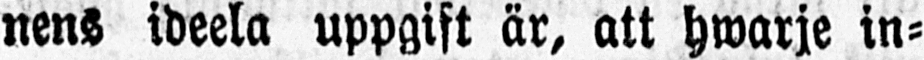nens ideela uppgift är, att hwarje in-
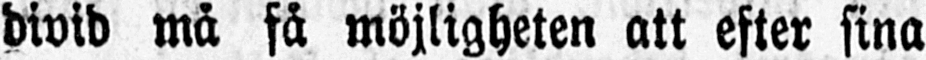divid må få möjligheten att efter sina
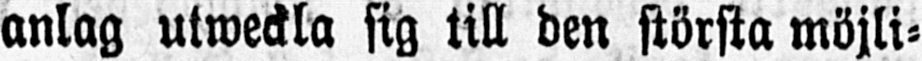anlag utweckla sig till den största möjli-
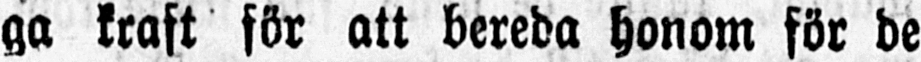ga kraft för att bereda honom för de
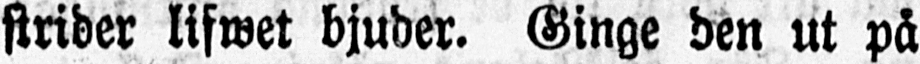strider lifwet bjuder. Ginge den ut på
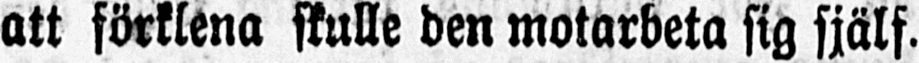att förklena skulle den motarbeta sig själf.
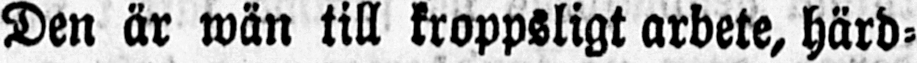Den är wän till kroppsligt arbete, härd-
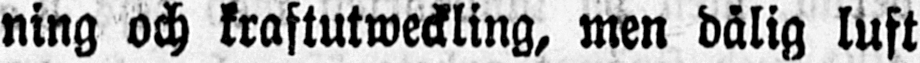ning och kraftutweckling, men dålig luft
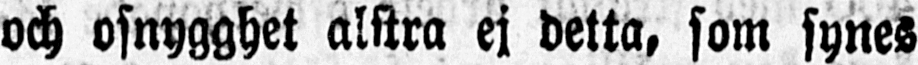och osnygghet alstra ej detta, som synes
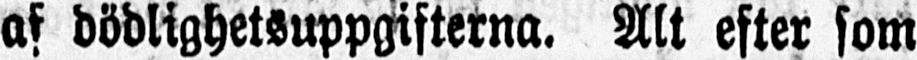af dödlighetsuppgifterna. Alt efter som
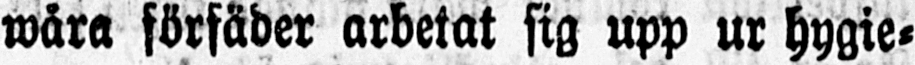wåra förfäder arbetat sig upp ur hygie-
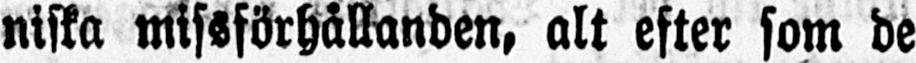niska missförhållanden, alt efter som de
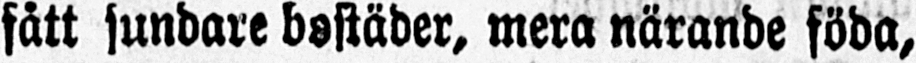fått sundare bostäder, mera närande föda,
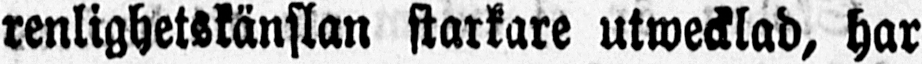renlighetskänslan starkare utwecklad, har
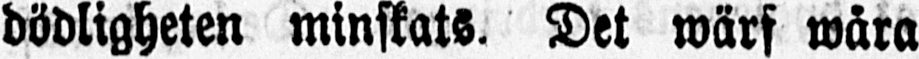dödligheten minskats. Det wärf wåra
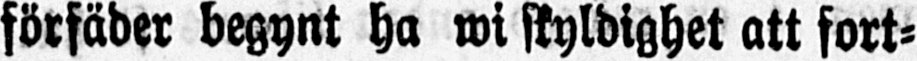förfäder begynt ha wi skyldighet att fort-
